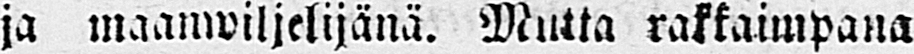ja maanwiljelijänä. Mutta rakkaimpana
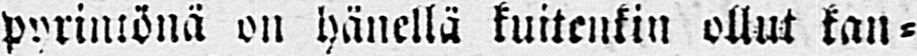pyrintönä on hänellä kuitenkin ollut kan-
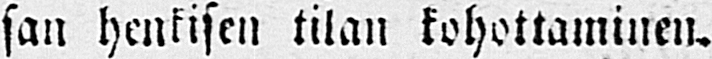san henkisen tilan kohottaminen.
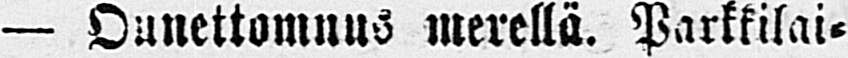— Ounettomuus merellä. Parkkilai-
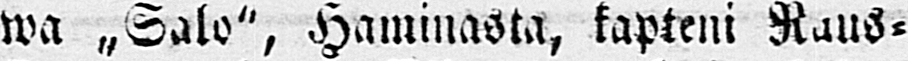wa „Salo", Haminasta, kapteni Raus-
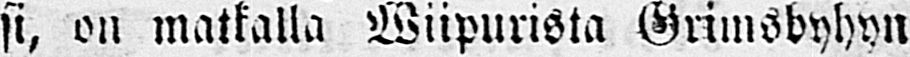si, on matkalla Wiipurista Grimsbyhyn
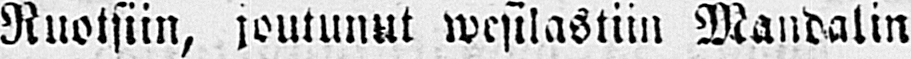Ruotsiin, joutunut wesilastiin Mandalin
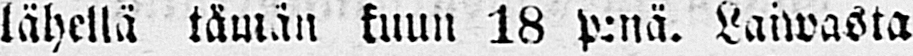lähellä tämän kuun 18 p:nä. Laiwasta
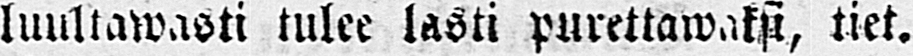luultawasti tulee lasti purettawaksi, tiet.
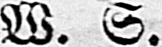W. S.
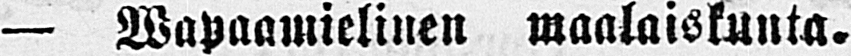— Wapaamielinen maalaiskunta.
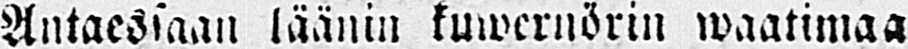Antaessaan läänin kuwernörin waatimaa
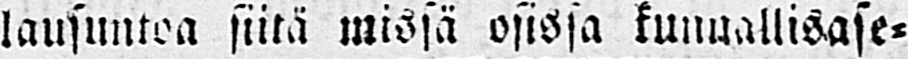lausuntoa siitä missä osissa kunnallisase-
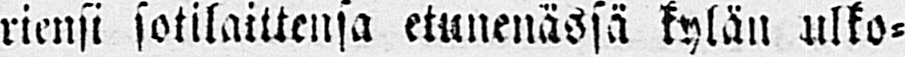riensi sotilaittensa etunenässä kylän ulko-
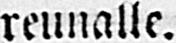reunalle.
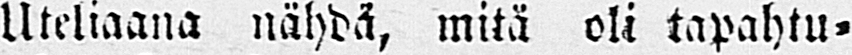Uteliaana nähdä, mitä oli tapahtu-
